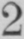2
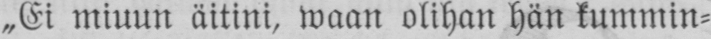„Ei miuun äitini, waan olihan hän kummin-
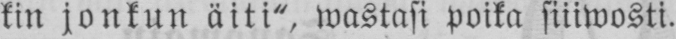kin jonkun äiti", wastasi poika siiiwosti.
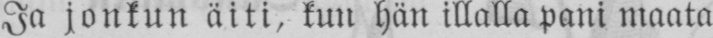Ja jonkun äiti, kun hän illalla pani maata
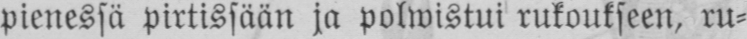pienessä pirtissään ja polwistui rukoukseen, ru-
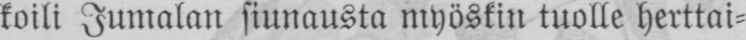koili Jumalan siunausta myöskin tuolle herttai-
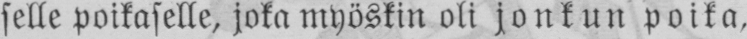selle poikaselle, joka myöskin oli jonkun poika,
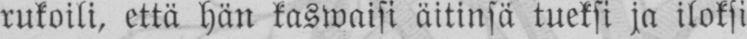rukoili, että hän kaswaisi äitinsä tueksi ja iloksi
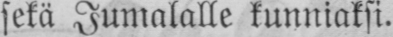sekä Jumalalle kunniaksi.
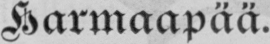Harmaapää.
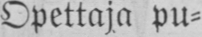Opettaja pu-
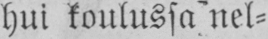hui koulussa nel-
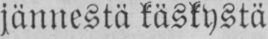jännestä käskystä
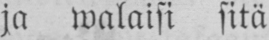ja walaisi sitä
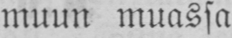muun muassa
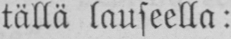tällä lauseella:
